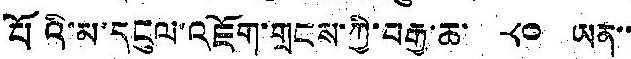པོའི་མ་དངུལ་འཇོག་གྲངས་ཀྱི་བརྒྱ་ཆ་ ༨༠ ཡན་་
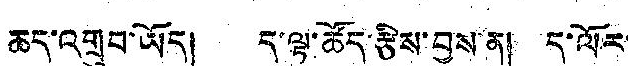ཆད་འགྲུབ་ཡོད། ད་ལྟ་ཚོད་རྩིས་བྱས་ན། ད་ལོར་
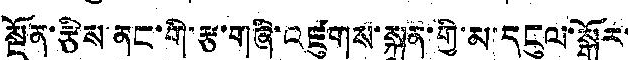སྔོན་རྩིས་ནང་གི་རྩ་གཞི་འཛུགས་སྐྲུན་གྱི་མ་དངུལ་སྒོར་
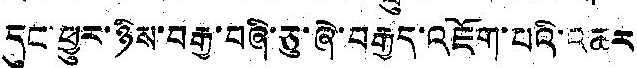དུང་ཕྱུར་ཉིས་བརྒྱ་བཞི་ཅུ་ཞེ་བརྒྱད་འཇོག་པའི་འཆར
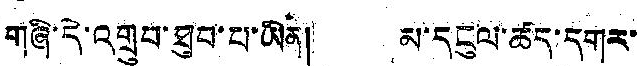གཞི་དེ་འགྲུབ་ཐུབ་པ་ཡིན། མ་དངུལ་ཚད་དགར་
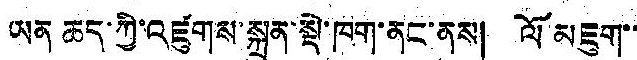ཡན ཆད་ཀྱི་འཛུགས་སྐྲུན་སྡེ་ཁག་ནང་ནས། ལོ མཇུག་་
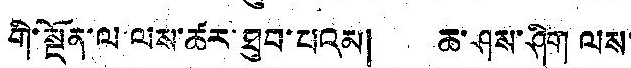གི་སྔོན་ལ་ལས་ཚར་ཐུབ་པའམ། ཆ་ཤས་ཤིག ལས་
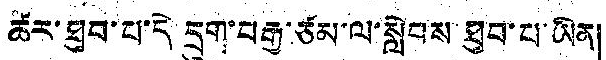ཚར་ཐུབ་པ་དེ་དྲུག་བརྒྱ་ཙམ་ལ་སླེབས ཐུབ་པ་ཡིན།
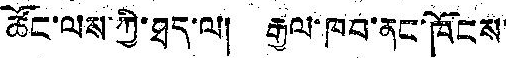ཚོང་ལས་ཀྱི་ཐད་ལ། རྒྱལ་ཁབ་ནང་ཁོངས་
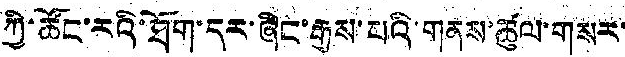ཀྱི་ཚོང་རའི་ཐོག་དར་ཞིང་རྒྱས་པའི་གནས་ཚུལ་གསར་
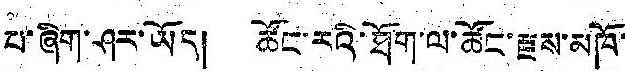པ་ཞིག་ཤར་ཡོད། ཚོང་རའི་ཐོག་ལ་ཚོང་རྫས་མཁོ་
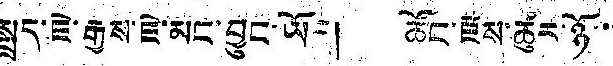སྤྲད་ཇེ་རྒྱས་ཇེ་མང་བྱུང་ཡོད། ཚོང་རྫས་ཚུར་ཉོ་་་
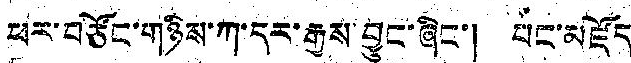ཕར་བཙོང་གཉིས་ཀ་དར་རྒྱས་བྱུང་ཞིང་། པང་མཛོད
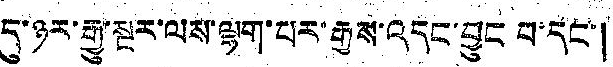དུ་ཉར་རྒྱུ་སྔར་ལས་ལྷག་པར་རྒྱས་འདང་བྱུང བ་དང་།
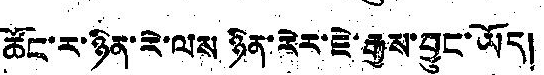ཚོང་ར་ཉིན་རེ་ལས ཉིན་རེར་ཇེ་རྒྱས་བྱུང་ཡོད།
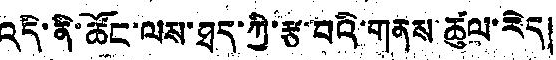འདི་ནི་ཚོང་ལས་ཐད་ཀྱི་རྩ་བའི་གནས་ཚུལ་རེ།
